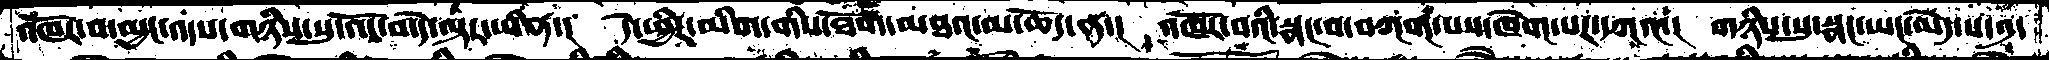འཁོར་བ་མྱང་འདས་གཉིས་སུ་འོང་བ་དེ་ལྟར་ཡིན་།   དེ་ཕྱིར་མིག་གིས་ཐོག་མཐའ་མ་ཆོད་ན་།   འཁོར་བའི་སྣང་བ་བཀའ་པས་ཁེག་པར་དཀའ་།  གཉིས་སུ་སྣང་ཡང་མེད་པ་༡་
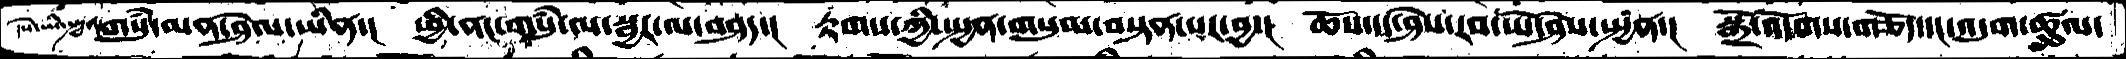དཔེ་ཡི་སྤྱན་གསུཾ་མན་ཤེལ་ཡིན་།  ཕྱི་ནང་གསུཾ་ལ་སྦྱར་ལ་བཤད་།  རྟགས་ཀྱི་སྤྱན་གསུམ་བསྟན་པར་བྱ་།  ཆོས་དང་ཤེས་རབ་ཡེ་ཤེས་སྤྱན་།  སྒྲོ་འདོགས་གཅོད་དང་འདུག་ཚུལ་
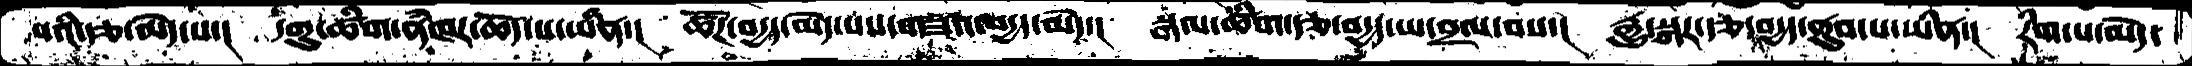པའི་རྩ་མེད་པ་།  དགུ་ཚིག་ནཾཁར་ཆོད་པ་ཡིན་།  ཚོཌ་བདྱད་མེད་པས་གཟའ་བདྱད་མེད་།  སྒལ་ཚིག་རྩ་བདྱད་ཡ་བྲལ་བས་།  རྒྱུ་སྐར་རྩ་བདྱད་ནུབ་པ་ཡིན་།  རིག་པ་མེད་
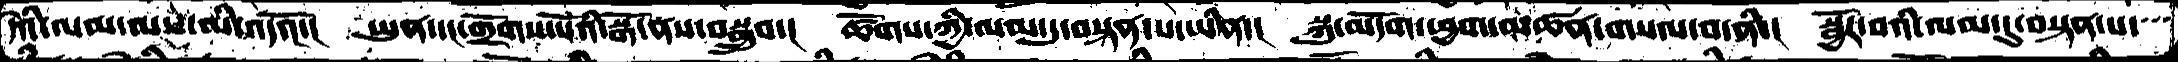དེའི་ལམ་ལས་མི་འདའོ་།  ཡུན་དང་གྲོགས་པོའི་སྒོ་ནས་བསྒྲུབ་།  ཚོགས་ཀྱི་ལམ་དུ་བསྟན་པ་ཡིན་།  སྐུ་མདོག་ཕྱག་མཚན་གསལ་བ་ནི་།  སྦྱོར་བའི་ལམ་དུ་བསྟན་པ་
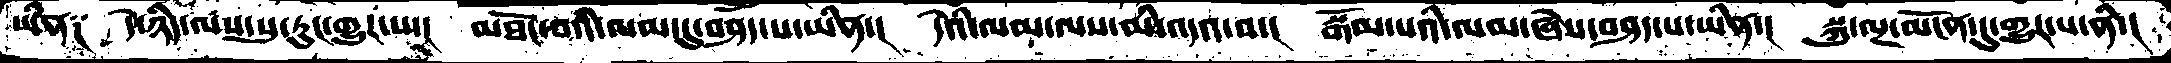ཡིན༑  དེ་ཉིད་ལས་སུ་རུང་གྱུར་པ་།  མཐོང་བའི་ལམ་དུ་བཤད་པ་ཡིན་།  དེའི་ལམ་ལས་མི་འདའ་བ་།  སྒོམ་པའི་ལམ་ཞེས་བཤད་པ་ཡིན་།  སྐུ་ལྔ་མངོན་དུ་གྱུར་པ་ནི་།
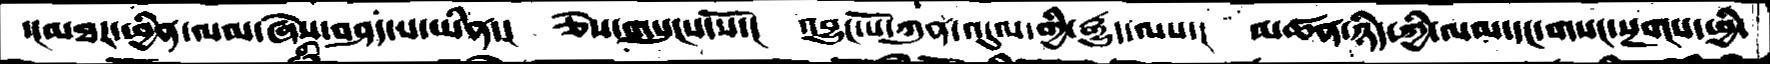དང་མཐར་ཕྱིན་ལམ་ཞེས་བཤད་པ་ཡིན་།  ཅེས་གསུངས་སོ་།  འབྱུང་པོ་ཀུན་འདུལ་གྱི་རྒྱུད་ལས་།  མཚན་ཉིད་ཀྱི་ལམ་དང་གསང་སྔགས་ཕྱི་
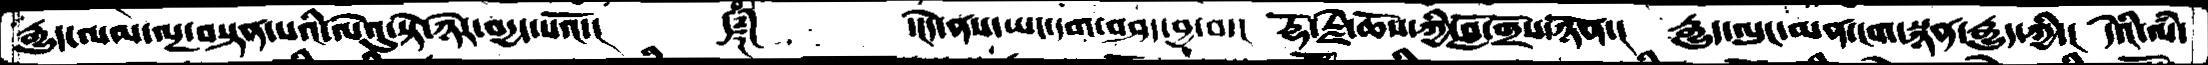རྒྱུད་ལམ་ལྔ་བསྟན་པའི་ལེའུ་སྟེ་ཉེར་བདྱད་པའོ་།     ༼༈༽       ་།དེ་ནས་ཡང་དག་བཤད་བྱ་བ་།  རྡོ་རྗེ་ཆོས་ཀྱི་བློ་གྲོས་ཉོན་།  རྒྱུད་ལུང་མན་ངག་སྙན་རྒྱུད་ཀྱི་།  དེའི་ལཾ་
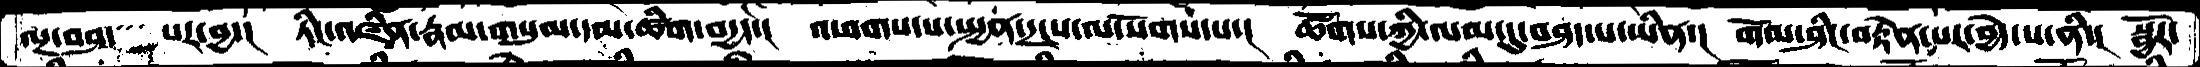ལྔ་བཤད་   པར་བྱ་།   ཏིང་འཛིན་རྣམ་གསུམ་དམ་ཚིག་བདྱད་།  འཕགས་པ་སྤྱན་དྲངས་ལ་སོགས་པ་།  ཚོགས་ཀྱི་ལམ་དུ་བཤད་པ་ཡིན་།  གོལ་ཤིང་བརྟེན་པར་བྱེད་པ་ནི་།  སྦྱོར་
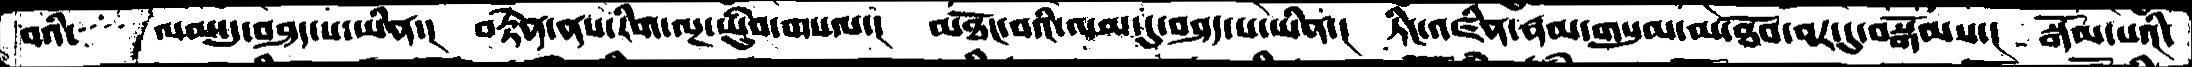བའི་   ལམ་དུ་བཤད་པ་ཡིན་།   བརྟེན་ནས་རིག་ལྔ་ཡུཾབ་གསལ་།  མཐོང་བའི་ལམ་དུ་བཤད་པ་ཡིན་།  ཏིང་འཛིན་རྣམ་གསུམ་མ་ཐོབ་བར་དུ་བསྒོམས་།  སྒོམ་པའི་
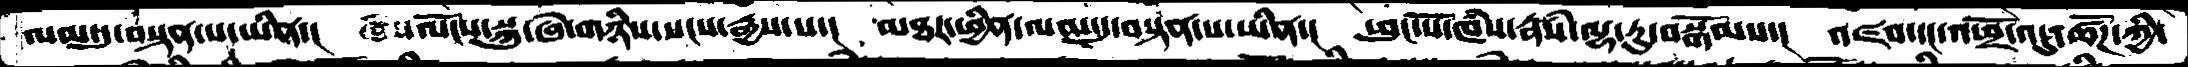ལམ་དུ་བསྟན་པ་ཡིན་།   ལོངས་སྐུ་ཞེ་གཉིས་སངས་རྒྱས་པ་།  མཐར་ཕྱིན་ལམ་དུ་བསྟན་པ་ཡིན་།  ཕུང་པོ་ཁཾས་རྣཾས་ལྷ་རུ་བསྒོམས་།  འཛབ་དང་འཕྲོ་འདུ་ཚོཌ་ཀྱི་
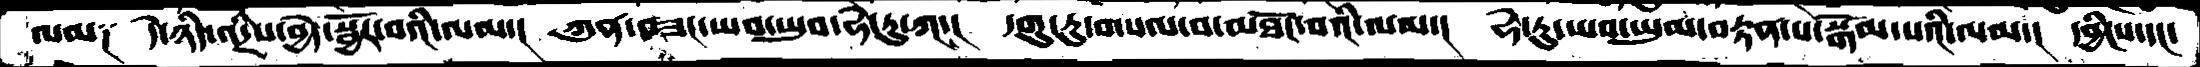ལམ༑ དེ་ཉིད་འདྲིས་བྱེད་སྦྱོར་བའི་ལམ་།  ཀུན་བཟང་ཡབ་ཡུམ་ཧེ་རུ་ཀ་།  དགུ་རུ་གསལ་བ་མཐོང་བའི་ལམ་།  ཧེ་རུ་ཡབ་ཡུམ་་བརྟན་པ་སྒོམ་པའི་ལམ་།  དབྱིངས་དང་
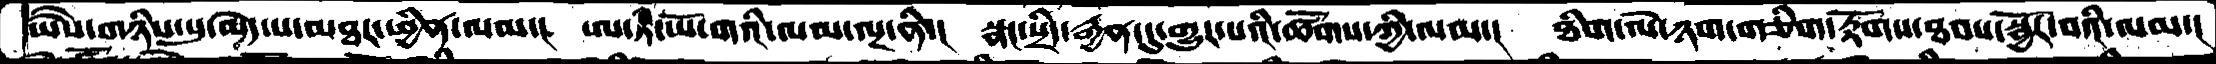ཡཻས་གཉིས་སུ་མེད་པ་མཐར་ཕྱིན་ལམ་།  ཨ་ཏི་ཡོ་གའི་ལམ་ལྔ་ནི་།  སྣང་སྲིད་རྒྱན་དུ་གྱུར་པའི་ཚོགས་ཀྱི་ལམ་།  ཐིག་ལེ་ཉག་གཅིག་རྟོགས་ཐབས་སྦྱོར་བའི་ལམ་།
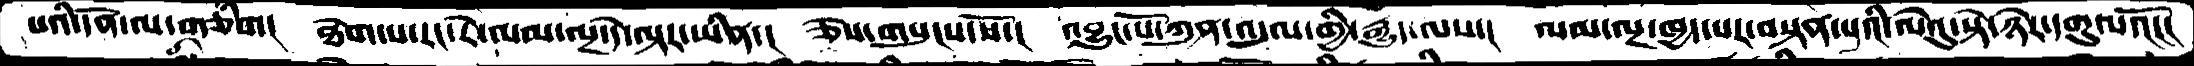པའི་དོན་ལ་གཅིག།  ཐེག་པ་རང་རེ་ལམ་ལྔ་དེ་ལྟར་ཡིན་།  ཅེས་གསུངས་སོ་།  འབྱུང་པོ་ཀུན་འདུལ་གྱི་རྒྱུད་ལས་།  ལམ་ལྔ་ཁྱད་པར་བསྟན་པའི་ལེའུ་སྟེ་ཉེར་དགུ་པའོ།།།
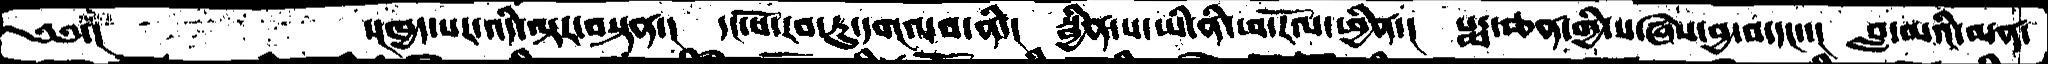༄༅་།         ་།ཁྱད་པར་འདི་ལྟར་བསྟན་།  དང་པོ་རབ་ཏུ་དགའ་བ་ནི་།  སྦྱིན་པ་ཡི་ནི་ཕ་་རོལ་ཕྱིན་།  པདྨ་ཅན་གྱི་ས་ཞེས་བྱ་བ་དང་།  བླ་མའི་མན་
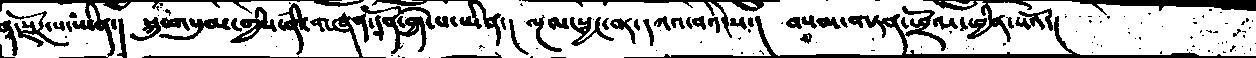ན་སྫོཌ་པ་ཡིན་།  སྐུ་གསུམ་གྱིས་ནི་གཞན་དོན་བྱེད་པ་ཡིན་།  ལྔ་ལ་སྦྱང་ན་དཀའ་བའི་ས་།  བསམ་གཏན་ཕྲོལ་ཕྱིན་པའོ་།
